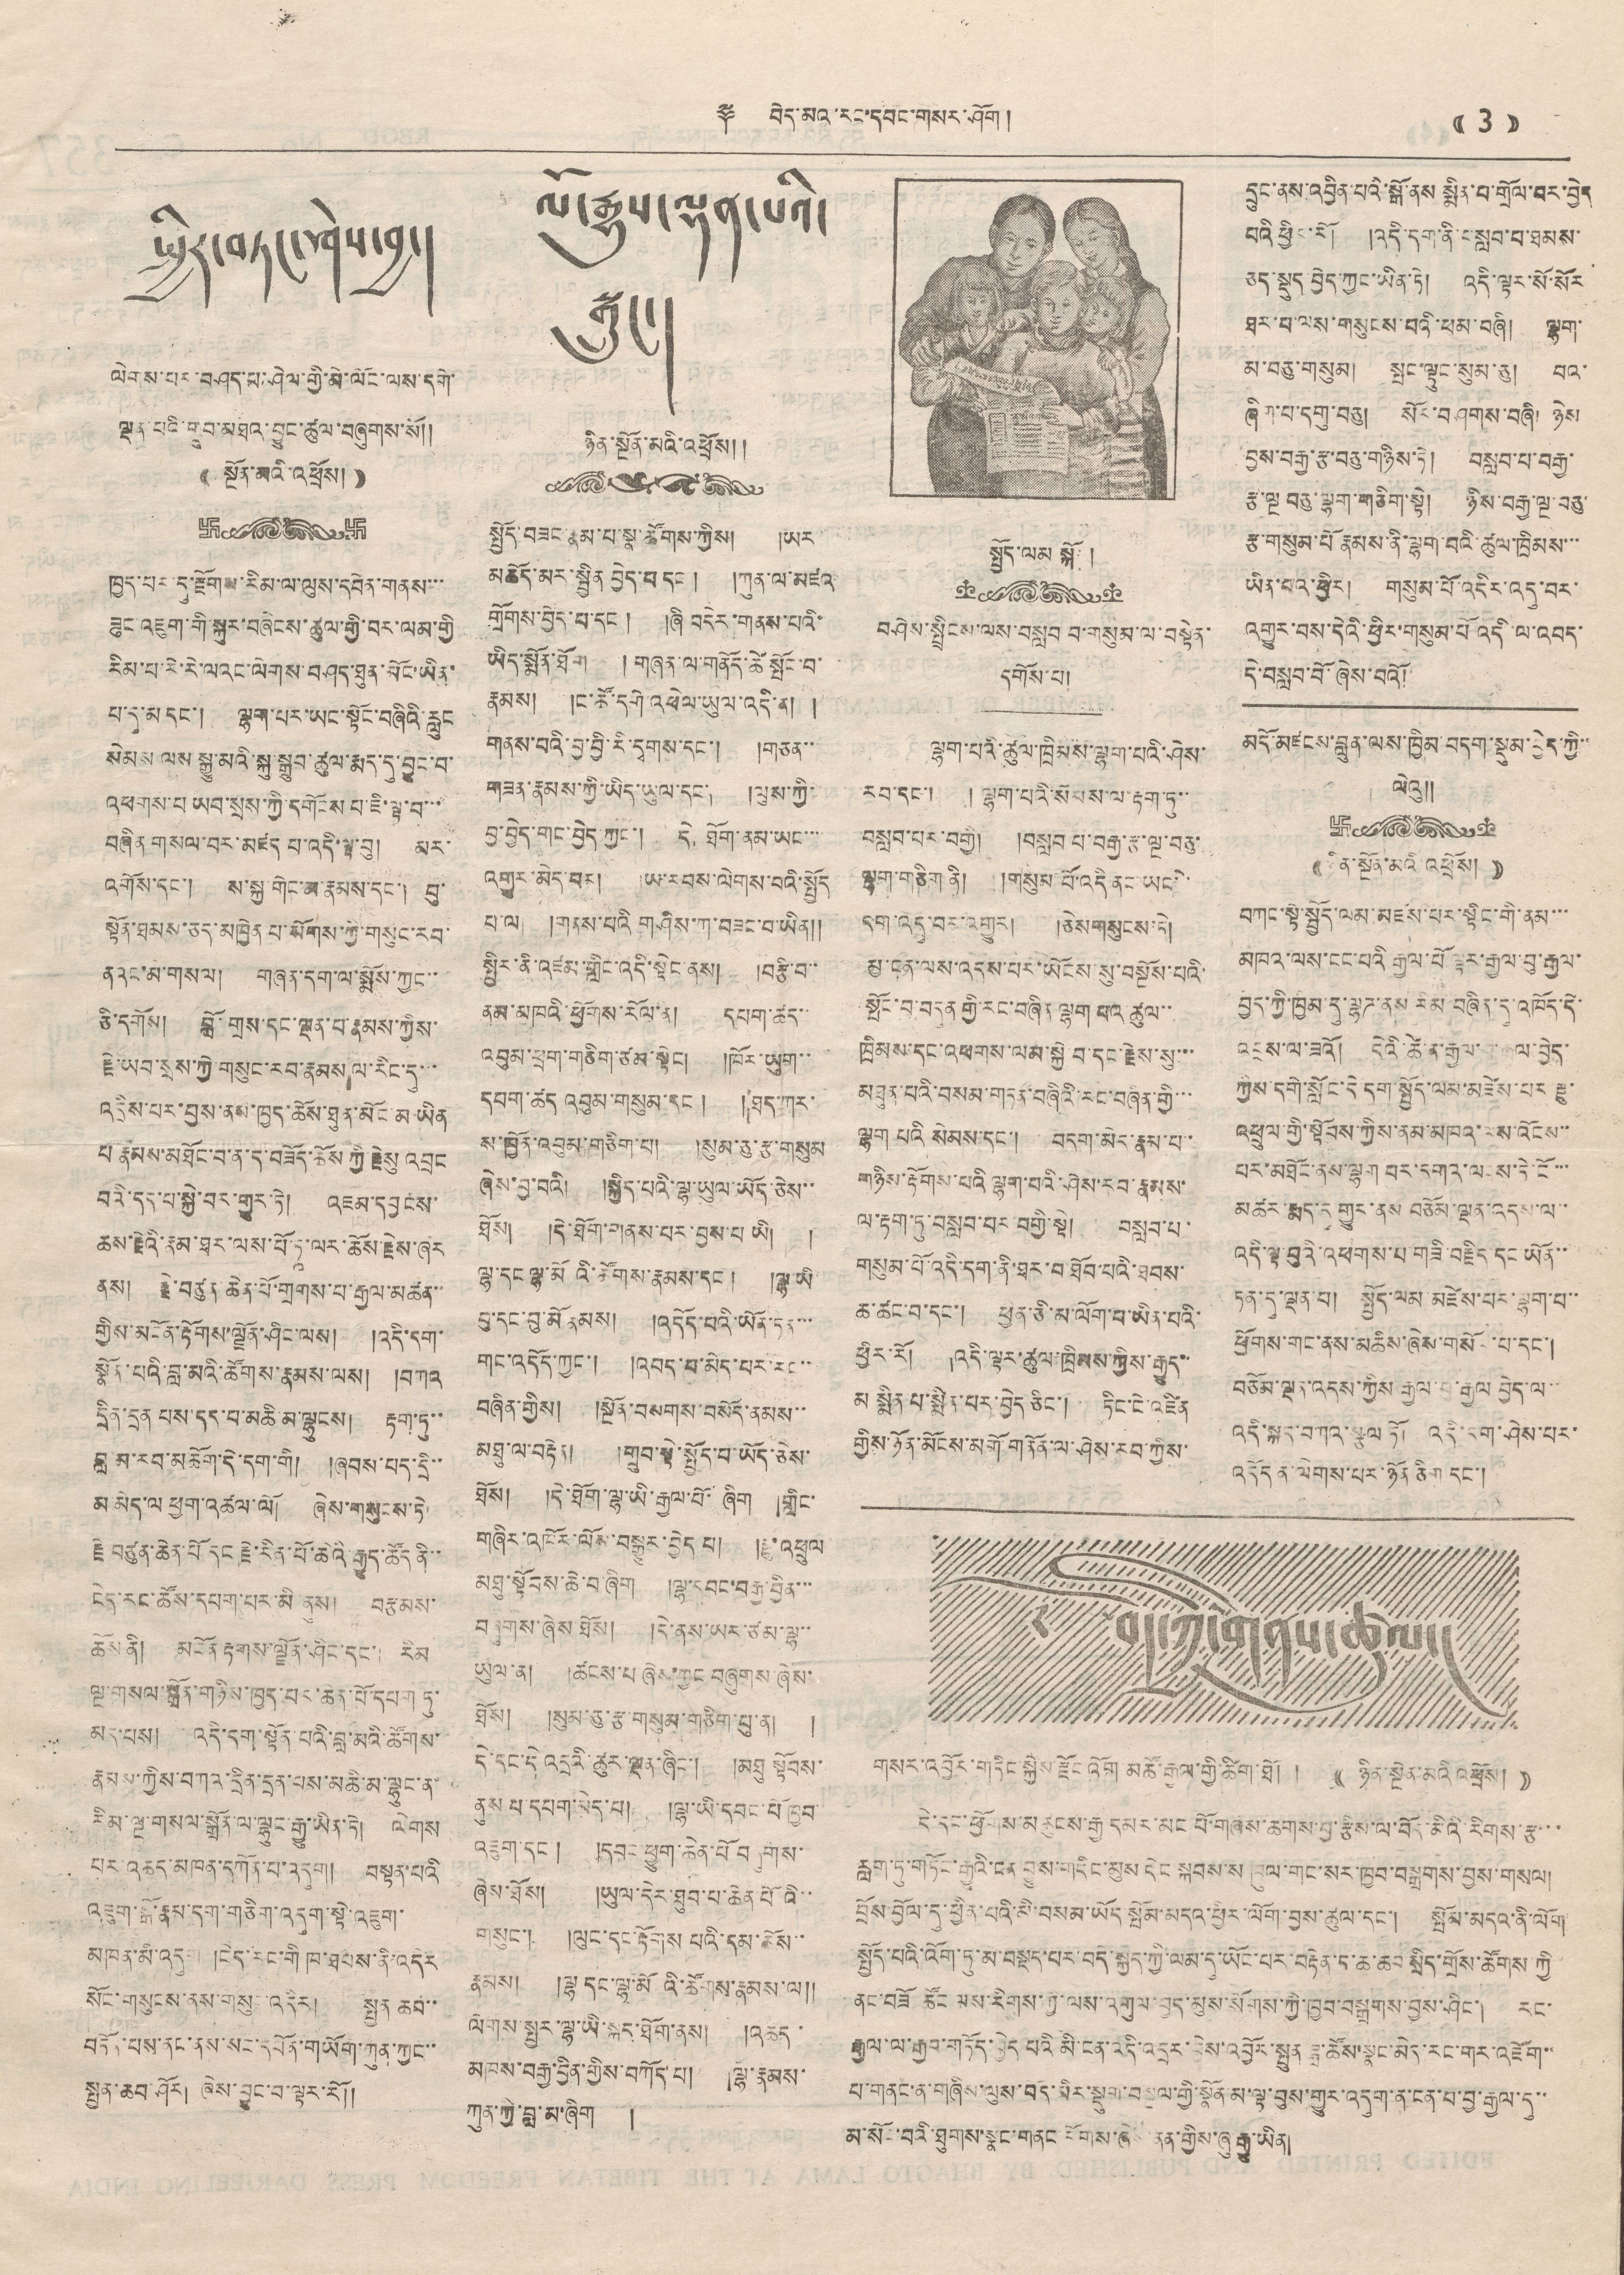༈ བེད་མའ་རང་དབང་གསར་ཤོག ། (( 3 ))
སྤྱིར་བཏང་ཤེས་བྱ།
ལེགས་པར་བཤད་པ་ཤེལ་གྱི་མེ་ལོང་ལས་དགེ་
ལྡན་པའི་གྲུབ་མཐའ་བྱུང་ཚུལ་བཞུགས་སོ།།
(( སྔོན་མའི་འཕྲོས། ))
ཁྱད་པར་དུ་རྫོགས་རིམ་ལ་ལུས་དབེན་གནས་་་
ཟུང་འཇུག་གི་སྐུར་བཞེངས་ཚུལ་གྱི་བར་ལམ་གྱི
རིན་པ་རེ་རེ་ལའང་ལེགས་བཤད་ཐུན་མོང་ཡིན་
པ་དུ་མ དང། ལྷག་པར་ཡང་སྟོང་བཞིའི་རླུང
སེམས ལས་སྒྱུ་མའི་སྐུ་སྒྲུབ་ཚུལ་རྨད་དུ་བྱུང་བ་
འཕགས་པ ཡབ་སྲས་ཀྱི་དགོངས་པ་ཇི་ལྟ་བ་་་
བཞིན གསལ་བར་མཛད པ་འདི་ལྟ་བུ། མར་
འགོས་དང་། ས་སྐྱ་གེང་མ་རྣམས་དང་། བུ་
སྟོན་ཐམས་ཅད་མཁྱེན པ་སོགས་ཀྱི་གསུང་རབ་
ནའང་མི་གསལ། གཞན་དག་ལ་སྨོས་ཀྱང་་
ཅི་དགོས། བློ་གྲས་དང་ལྡན་པ་རྣམས་ཀྱིས་
རྗེ་ཡབ་སྲས་ཀྱི་གསུང་རབ་རྣམས ལ་རིང་དུ་་
འདྲིས་པར་བྱས་ནས་ཁྱད་ཆོས་ཐུན་མོང་མ ཡིན
པ རྣམས་མཐོང་བ་ན་ད་བཟོད་ཆོས ཀྱི་རྗེསུ འབྲང
བའི་དད་པ་སྐྱེ་བར་གྱུར་ཏེ། འཇམ་དབྱངས་
ཆས་རྗེའི་རྣམ་ཐར་ལས་པོ་ཏཱ་ལར་ཆོས་རྗེས་ཞར
ནས། རྗེ་བཙུན་ཆེན་པོ་གྲགས་པ་རྒྱལ་མཚན་་
གྱིས་མངོན་རྟོགས་ལྗོན་ཤིང་ལས། །འདི་དག་
སྣོན་པའི་བླ་མའི་ཚོགས་རྣམས་ལས། །བཀའ
དྲིན་དྲན པས་དད་པ་མཆི་མ་ལྷུངས། རྟག་ཏུ་་
བླ་མ་རབ་མཆོག་དེ་དག་གི། །ཞབས་པད་དྲི་་
མ མེད་ལ ཕྱག་འཚལ་ལོ། ཞེས་གསུངས་ཏེ་
རྗེ བཙུན་ཆེན་པོ དང་རྗེ་རིན་པོ་ཆེའི་རྒྱུད་ཚོད ནི་་
ངེད་རང་ཚོས་དཔག་པར་མི་ནུས། བརྩམས་
ཆོས་ནི། མངོན རྟགས་ལྗོན་ཤིང་དང་། རིམ
ལྔ་གསལ་སྒྲོན་གཉིས་ཁྱད་པར་ཆེན་པོ་དཔག ཏུ་
མད་པས། འདི་དག་སྟོན་པའི་བླ་མའི་ཚོགས་
རྣམས་ཀྱིས་བཀའ་དྲིན་དྲན་པས་མཆི་མ་ལྷུང་ན་
རིམ་ལྔ་གསལ་སྒྲོན་ལ་ལྷུང་རྒྱུ་ཡིན་ཏེ། ལེགས
པར་འཆད་མཁན་དཀོན་་པ་འདུག། བསྟན་པའི
འཇུག་སྒོ་རྣམ་དག་གཅིག་འདུག་སྟེ་འཇུག་
མཁན་མི་འདུག །ངེད་རང་གི ཁ་ཐབས་ནི་འདིར
སོང་གསུངས་ནས་གསུང་འདིར། སྤྱན ཆབ་་
བཏོན་པས་ནང་ནས་སང་དཔོན་གཡོག་ཀུན་ཀྱང་་
སྤྱན་ཆབ་ཤོར། ཞེས་བྱུང་བ་ལྟར་རོ།།
ལོ་རྒྱུས་ལྡན་པའི་
སྒྲུང་།
ཉིན་སྔོན་མའི་འཕྲོས།།
སྤྱོད་བཟང་རྣམ་པ་སྣ་ཚོགས་ཀྱིས། །ཡར
མཆོད་མར་སྤྱིན བྱེད་པ་དང་། །ཀུན་ལ་མཛའ
གྲོགས་བྱེད་པ་དང་། །ཞི བདེར་གནས་པའི་
ཡིད་སྨོན་ཐོག །གཞན་ལ་གནོད་ཚེ་སྤོང་བ་
རྣམས། །ང་ཚོ་དགེ་འཕེལ་ཡུལ་འདི་ན། །
གནས་པའི་བྱ་བྱི་རི་དྭགས་དང་། །གཅན་་
གཟན་རྣམས་ཀྱི་ཡིད་ཡུལ་དང་། །ལུས་ཀྱི་
བྱ་བྱེད་གང་བྱེད་ཀྱང་། དེ་ཐོག་ནམ་ཡང་་་
འགྱུར་མེད་པར། ཡ་རབས་ལེགས་པའི་སྤྱོད
པ་ལ། །གནས་པའི གཤིས་ཀ་བཟང་པ་ཡིན།།
སྤྱིར་ནི་འཛམ་གླིང་འདི་སྟེང་ནས། །བརྩི་བ་་
ནམ་མཁའི་ཕྱོགས་རོལ་ན། དཔག་ཚད་་
འབུམ་ཕྲག་གཅིག་ཙམ་སྟེང། །ཁོར་ཡུག་་
དཔག་ཚད འབུམ་གསུམ་དང་། །ཐད་ཀར་
ས་ཁྱོན་འབུམ་གཅིག་པ། །སུམ་ཅུ་རྩ་གསུམ
ཞེས་བྱ་བའི། །སྐྱིད་པའི་ལྷ་ཡུལ་ཡོད་ཅེས་་
ཐོས། །དེ་ཐོག་གནས་པར་བྱས་པ ཡི། །
ལྷ་དང ལྷ་མོའི་ཚོགས་རྣམས་དང། །ལྷ་ཡི
བུ་དང་བུ་མོ རྣམས། །འདོད་པའི་ཡོན་ཏན་་་
གང་འདོད་ཀྱང་། །འབད་པ་མེད་པར་རང་་་
བཞིན་གྱིས། །སྔོན་བསགས་བསོད་ནམས་་
མཐུ་ལ་བརྟེན། །གྲུབ་སྟེ་སྤྱོད་པ་ཡོད་ཅེས་
ཐོས། །དེ་ཐོག་ལྷ་ཡི་རྒྱལ་པོ་ ཞིག །གླིང་
གཞིར་འཁོར་ལོས་བསྒྱུར་བྱེད་པ། །རྫུ་འཕྲུལ
མཐུ་སྟོབས་ཆེ་བ་ཞིག །ལྷ་དབང་བརྒྱ་བྱིན་་་
བཞུགས་ཞེས་ཐོས། །དེ་ནས་ཡར་ཙམ་ལྷ་་
ཡུལ་ན། །ཚངས་པ་ཞེས་ཀྱང བཞུགས་ཞེས་
ཐོས། །སུམ་ཅུ་རྩ་གསུམ་གཅིག་པུ་ན། །
དེ་དང་དེ་འདྲའི་ཚུར་ལྡན་ཞིང་། །མཐུ་སྟོབས་
ནུས པ་དཔག་མེད་པ། །ལྷ་ཡི་དབང་པོ་ཁྱབ
འཇུག་དང་། །དབང་ཕྱུག་ཆེན་པོ་བཞུགས་
ཞེས་ཐོས། །ཡུལ་དེར་ཐུབ་པ་ཆེན་པོའི་་
གསུང་། །ལུང་དང་རྟོགས པའི་དམ་ཆོས་་
རྣམས། །ལྷ དང་ལྷ་མོ འི་ཚོགས་རྣམས་ལ།།
ལེགས་སྤྱར་ལྷ་ཡི་སྐད་ཐོག་ནས། །འཆད་
མཁས་བརྒྱ་བྱིན་གྱིས་བཀོད་པ། །ལྷོ་རྣམས་
ཀུན་ཀྱི་བླ་མ་ཞིག །
སྤྱོད་ལམ སྐོར།
བཤེས་སྤྲིངས་ལས་བསླབ བ་གསུམ་ལ་བསྟེན་
དགོས་པ།
ལྷག་པའི་ཚུལ་ཁྲིམས་ལྷག་པའི་ཤེས་
རབ་དང་། །ལྷག་པའི་སེམས་ལ་རྟག་ཏུ་་
བསླབ་པར་བགྱི། །བསླབ པ་བརྒྱ་རྩ་ལྔ་བཅུ་
ལྷག་གཅིག ནི། །གསུམ་པོ་འདི ནང་ཡང་དེ་
དག་འདུ་བར་འགྱུར། །ཅེསགསུངས་ཏེ།
མྱ་ངན་ལས་འདས་པར་ཡོངས་སུ་བསྔོས་པའི་
སྤོང་བ་བདུན་གྱི་རང་བཞིན ལྷག་པའ ཚུལ་་
ཁྲིམས་དང་འཕགས་ལམ་སྐྱེ་བ་དང་རྗེས་སུ་་
མཐུན་པའི་བསམ་གཏན་བཞིའི་རང་བཞིན་གྱི་་་
ལྷག པའི སེམས་དང་། བདག་མེད་རྣམ་པ་
གཉིས་རྟོགས་པའི་ལྷག་པའི་ཤེས་རབ་རྣམས་
ལ་རྟག་ཏུ་བསླབ་པར་བགྱི་སྟེ། བསླབ་པ་
གསུམ་པོ་འདི་དག་ནི་ཐར་བ་ཐོབ་པའི་ཐབས་
ཆ་ཚང་བ་དང་། ཕྱིན་ཅི་མ་ལོག་པ་ཡིན་པའི་
ཕྱིར་རོ། །འདི་ལྟར་ཚུལ་ཁྲིམས་ཀྱིས་རྒྱུད་་
མ སྨིན པ་སྨིན་པར་བྱེད ཅིང་། ཏིང་ངེ་འཛིན
གྱིས་ཉོན་མོངས་མགོ་གནོན་ལ་ཤེས་རབ་ཀྱིས་
དྲུང་ནས་འབྱིན་པའི་སྒོ་ནས སྨིན་པ་གྲོལ་བར་བྱེད
པའི ཕྱིར་རོ། །འདི་དག་ནི་བསླབ་པ་ཐམས་
ཅད་སྡུད་བྱེད་ཀྱང་ཡིན་ཏེ། འདི་ལྟར་སོ་སོར
ཐར་པ་ལས་གསུངས་བའི་ཕམ་བཞི། ལྷག་
མ་བཅུ་གསུམ། སྤང་ལྟུང་སུམ་ཅུ། པའ
ཞིག་པ་དགུ་བཅུ། སོར་བཤགས་བཞི། ཉེས
བྱས་བརྒྱ་རྩ་བཅུ་གཉིས་ཏེ། བསླབ་པ་བརྒྱ་
རྩ་ལྔ བཅུ་ལྷག་གཅིག་སྟེ། ཉིས་བརྒྱ་ལྔ་བཅུ་
རྩ་གསུམ་པོ རྣམས་ནི་ལྷག་པའི་ཚུལ་ཁྲིམས་་་
ཡིན་པའ་ཕྱིར། གསུམ་པོ་འདིར་འདུ་བར་
འགྱུར་བས་དེའི་ཕྱིར་གསུམ་པོ འདི་ལ་འབད་
དེ་བསླབ་བོ་ཞེས་པའོ།
མདོ་མཛངས་བླུན་ལས་ཁྱིམ་བདག་སྡུམ་བྱེད་ཀྱི་་
ལེའུ།།
(( ཉིན་སྔོན་མའི་འཕྲོས། ))
བཀང་སྟེ་སྤྱོད་ལམ་མཛས་པར་སྟིང་གི་ནམ་་་
མཁའ་ལས་ངང་པའི་རྒྱལ་པོ་ལྟར་རྒྱལ་བུ་རྒྱལ་
བྱད་ཀྱི་ཁྱིམ་དུ་ལྷཌ་ནས རིམ་བཞིན་དུ་འཁོད་དེ་
འབྲས་ལ་ཟའོ། དེའི་ཚེ་ན་རྒྱལ་བ་རྒྱལ་བྱེད་
ཀྱིས་དགེ་སློང་དེ་དག་སྤྱོད་ལམ་མཛེས་པར རྫུ་
འཕྲུལ་གྱི་སྟོབས་ཀྱིས་ནམ་མཁའ་ལས་འོངས་་
པར་མཐོང་ནས་ལྷག པར་དགའ་ལངས་ཏེ་ངོ་་་
མཚར་རྨད་དུ གྱུར་ནས་བཅོམ་ལྡན་འདས་ལ་་
འདི་ལྟ་བུའི་འཕགས་པ་གཟི་བརྗོད་དང་ཡོན་་
ཏན་དུ་ལྡན་པ། སྤྱོད་ལམ་མཛེས་པར་ལྷག་པ་་
ཕྱོགས་གང་ནས་མཆིས་ཞེས་གསོལ་པ་དང་།
བཅོམ་ལྡན་འདས་ཀྱིས རྒྱལ་བུ་རྒྱལ བྱེད་ལ་་
འདི་སྐད་བཀའ་སྩལ་ཏོ། འདི་དག་ཤེས་པར་
འདོད ན་ལེགས་པར་ཉོན ཅིག དང་།
༄ བོད་ཀྱི་གནས་ཚུལ།
གསར་འབྱོར་གཏིང་སྐྱེས་རྫོང་འོག་མཚོ་རྒྱལ་གྱི་ཚིག་ཐོ། ། (( ཉིན་སྔོན་མའི་འཕྲོས། ))
གསར་འབྱོར་གཏིང་སྐྱེས་རྫོང་འོག་མཚོ་རྒྱལ་གྱི་ཚིག་ཐོ། ། (( ཉིན་སྔོན་མའི་འཕྲོས། ))
དེ་དང་ཕྱོགས་མཚུངས་རྒྱ དམར་མང་པོ་གཞས་ཆགས་བྱ་རྩིས་ལ་བོད་མིའི་རིགས་རྩ་་་
རླག་ཏུ་གཏིང་རྒྱུའི་ངན་བྱུས་གདིང་མུས་དེང་སྐབས་ས་ ཁུལ་གང་སར་ཁྱབ་བསྒྲགས་བྱས་གསལ།
བྲོས་བྱོལ་དུ་ཕྱིན་པའི་མི་བསམ་ཡོད་སྤོམ་བདའ་ཕྱིར་ལོག་བྱས་ཚུལ་དང་། སྤོམ་མདའ་ནི་ལོག
སྤྱོད་པའི་འོག་ཏུ་མ་བསྡད་པར་བདེ་སྐྱིད་ཀྱི་ལམ་དུ་ཡོང་པར་བརྟེན་ད་ཆ་ཆབ་སྲིད་གྲོས་ཚོགས་ཀྱི
ནང་བཟོ ཚོང ལས་རིགས་ཀྱི་ལས་འགུལ་བྱད་མུས་སོགས་ཀྱི་ཁྱབ་བསྒྲགས་བྱས་ཤིང་། རང་
རྒྱལ་ལ་རྒྱབ་གཏོད་བྱེད པའི མི་ངན་འདི་འདྲར་བྱེས་འབྱོར་སྤུན་ཟླ་ཚོས་སྣང་མེད་རང་གར་འཇོག་་
པ་གནང་ན་གཞིས་ལུས་བདེ་མིར་སྡུག་བསྔལ་གྱི་སྣོན་མ་ལྟ་བུས་གྱུར་འདུག་ན་ངན་པ་བྱ་རྒྱལ་དུ་་
མ་སོང་བའི་ཐུགས་སྣང་གནང་རོགས་ཞེས་ནན་གྱིས་ཞུ་རྒྱུ་ཡིན།
